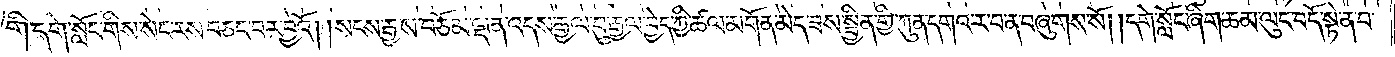གི་དགེ་སློང་གིས་སེང་རས་བཅང་བར་བྱའོ། །སངས་རྒྱས་བཅོམ་ལྡན་འདས་རྒྱལ་བུ་རྒྱལ་བྱེད་ཀྱི་ཚལ་མགོན་མེད་ཟས་སྦྱིན་གྱི་ཀུན་དགའ་ར་བ་ན་བཞུགས་སོ། །དགེ་སློང་ཞིག་ཆམ་ལུང་བདོ་སྟེ་ན་བ་
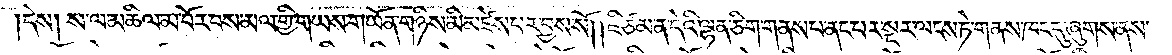དེས། ས་ལ་མཆིལ་མ་བོར་བས་མལ་གྱི་གཡས་གཡོན་གཉིས་མི་མཛེས་པར་བྱས་སོ། །ཇི་ཙམ་ན་དེའི་ལྷན་ཅིག་གནས་པ་ནང་པར་སྔར་ལངས་ཏེ་གནས་ཁང་དུ་ཞུགས་ནས་
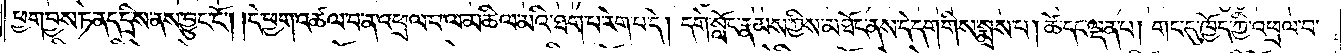ཕྱག་བྱས་ཏེ་ནད་དྲིས་ནས་བྱུང་ངོ༌། །དེ་ཕྱག་འཚལ་བ་ན་འཕྲལ་བ་ལ་མཆིལ་མའི་ཐག་པ་རེག་པ་དེ། དགེ་སློང་རྣམས་ཀྱིས་མཐོང་ནས་དེ་དག་གིས་སྨྲས་པ། ཚེ་དང་ལྡན་པ། གང་དུ་ཁྱོད་ཀྱི་འཕྲལ་བ་
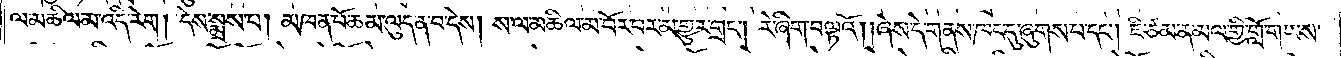ལ་མཆིལ་མ་འདི་རེག། དེས་སྨྲས་པ། མཁན་པོ་ཆམ་ལུད་ན་བ་དེས། ས་ལ་མཆིལ་མ་བོར་བར་མ་གྱུར་གྲང༌། རེ་ཞིག་བལྟའོ། །ཞེས་དེ་གནས་ཁང་དུ་ཞུགས་པ་དང༌། ཇི་ཙམ་ན་མལ་གྱི་གློ་གཡས་
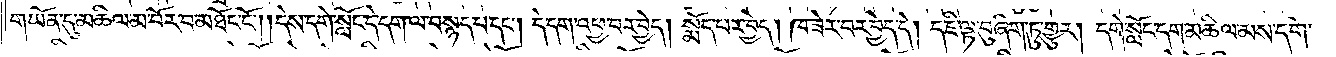གཡོན་དུ་མཆིལ་མ་བོར་བ་མཐོང་ངོ༌། །དེས་དགེ་སློང་དེ་དག་ལ་བསྙད་པ་དང༌། དེ་དག་འཕྱ་བར་བྱེད། སྨོད་པར་བྱེད། ཁ་ཟེར་བར་བྱེད་དེ། ད་ཇི་ལྟ་བུ་ཞིག་ཏུ་གྱུར། དགེ་སློང་དག་མཆིལ་མས་དགེ་
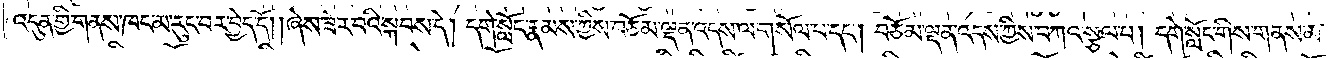འདུན་གྱི་གནས་ཁང་མ་རུང་བར་བྱེད་དོ། །ཞེས་ཟེར་བའི་སྐབས་དེ། དགེ་སློང་རྣམས་ཀྱིས་བཅོམ་ལྡན་འདས་ལ་གསོལ་པ་དང༌། བཅོམ་ལྡན་འདས་ཀྱིས་བཀའ་སྩལ་པ། དགེ་སློང་གིས་གནས་མ་
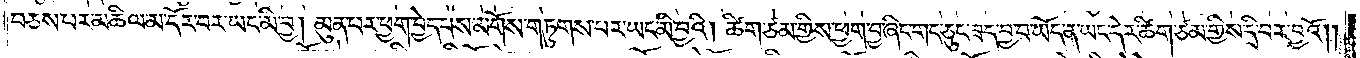བཅས་པར་མཆིལ་མ་དོར་བར་ཡང་མི་བྱ། མུན་པར་ཕྱག་བྱེད་པས་མགོས་གཏུགས་པར་ཡང་མི་བྱའི། ཚིག་ཙམ་གྱིས་ཕྱག་བྱ་ཞིང་གང་ཅུང་ཟད་བྱ་བ་ཡོད་ན་ཡང་དེར་ཚིག་ཙམ་གྱིས་དྲི་བར་བྱའོ། །
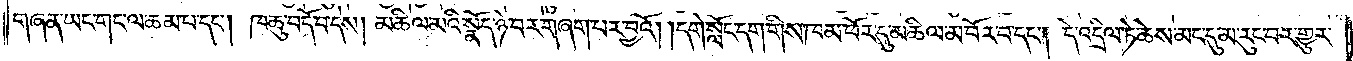གཞན་ཡང་གང་ལ་ཆམ་པ་དང༌། ཁ་ཆུ་བ་དོ་བ་དེས། མཆིལ་མའི་སྣོད་ཉེ་བར་གཞག་པར་བྱའོ། །དགེ་སློང་དག་གིས་ཁམ་ཕོར་དུ་མཆིལ་མ་བོར་བ་དང༌། དེ་འདྲིལ་ཏེ་ཆེས་མང་དུ་མ་རུང་བར་གྱུར་
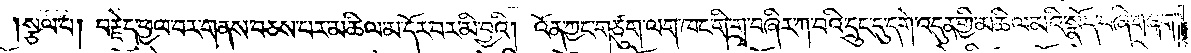སྩལ་པ། བརྗེད་ཕྱལ་བར་གནས་བཅས་པར་མཆིལ་མ་དོར་བར་མི་བྱའི། འོན་ཀྱང་གཙུག་ལག་ཁང་གི་གྲྭ་བཞིར་ཀ་བའི་དྲུང་དུ་དགེ་འདུན་གྱི་མཆིལ་མའི་སྣོད་བཞི་གཞག་
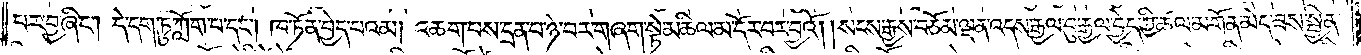པར་བྱ་ཞིང༌། དེ་དག་ཏུ་ཀློག་པ་དང༌། ཁ་ཏོན་བྱེད་པའམ། འཆག་པས་དྲན་པ་ཉེ་བར་གཞག་སྟེ་མཆིལ་མ་དོར་བར་བྱའོ། །སངས་རྒྱས་བཅོམ་ལྡན་འདས་རྒྱལ་བུ་རྒྱལ་བྱེད་ཀྱི་ཚལ་མགོན་མེད་ཟས་སྦྱིན་
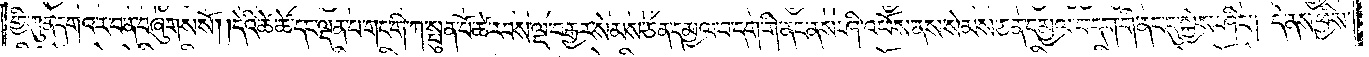གྱི་ཀུན་དགའ་ར་བ་ན་བཞུགས་སོ། །དེའི་ཚེ་ཚེ་དང་ལྡན་པ་གང་གི་ཀ་སྤུན་པོ་ཚེ་རབས་ལྔ་བརྒྱར་སེམས་ཅན་དམྱལ་བ་དག་གི་ནང་ནས་ཤི་འཕོས་ནས་སེམས་ཅན་དམྱལ་བ་དག་གི་ནང་དུ་སྐྱེས་ཤིང༌། དེ་ནས་ཕྱིས་
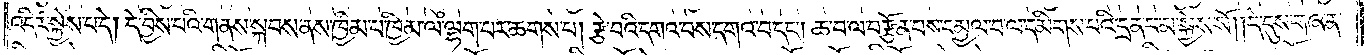འདིར་སྐྱེས་པ་དེ། དེ་བྱིས་པའི་གནས་སྐབས་ནས་ཁྱིམ་པ་ཁྱིམ་ལ་ལྷག་པར་ཆགས་པ། རྩེ་བའི་དགའ་བས་དགའ་བ་དང༌། ཆ་བ་ལ་བརྩོན་པས་དམྱལ་བ་ལ་དམིགས་པའི་དྲན་པ་མ་སྐྱེས་སོ། །དེ་དུས་གཞན་
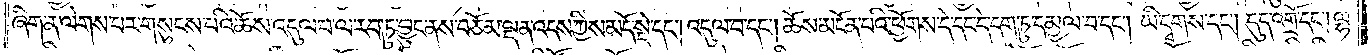ཞིག་ན་ལེགས་པར་གསུངས་པའི་ཆོས་འདུལ་བ་ལ་རབ་ཏུ་བྱུང་ནས་བཅོམ་ལྡན་འདས་ཀྱིས་མདོ་སྡེ་དང༌། འདུལ་བ་དང༌། ཆོས་མངོན་པའི་ཕྱོགས་དེ་དང་དེ་དག་ཏུ་དམྱལ་བ་དང༌། ཡི་དྭགས་དང༌། དུད་འགྲོ་དང༌། ལྷ་
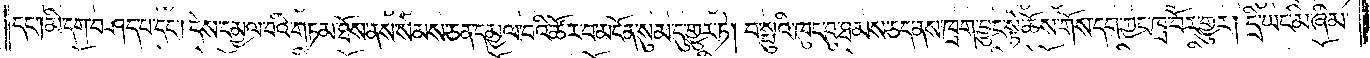དང༌། མི་དག་བཤད་པ་དང༌། དེས་དམྱལ་བའི་གཏམ་ཐོས་ནས་སེམས་ཅན་དམྱལ་བའི་ཚོར་བ་མངོན་སུམ་དུ་གྱུར་ཏེ། བ་སྤུའི་ཁུང་བ་ཐམས་ཅད་ནས་ཁྲག་བྱུང་སྟེ་ཆོས་གོས་དག་ཀྱང་ཁྲ་བོར་གྱུར། དྲི་ཡང་མི་ཞིམ་
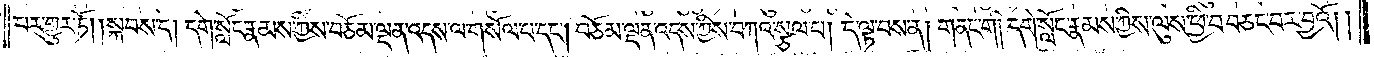པར་གྱུར་ཏོ། །སྐབས་དེ། དགེ་སློང་རྣམས་ཀྱིས་བཅོམ་ལྡན་འདས་ལ་གསོལ་པ་དང༌། བཅོམ་ལྡན་འདས་ཀྱིས་བཀའ་སྩལ་པ། དེ་ལྟ་བས་ན། གནང་གི །དགེ་སློང་རྣམས་ཀྱིས་ལུས་ཕྱི་བ་བཅང་བར་བྱའོ། །
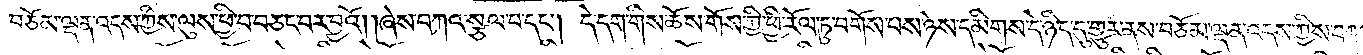བཅོམ་ལྡན་འདས་ཀྱིས་ལུས་ཕྱི་བ་བཅང་བར་བྱའོ། །ཞེས་བཀའ་སྩལ་པ་དང༌། དེ་དག་གིས་ཆོས་གོས་ཀྱི་ཕྱི་རོལ་ཏུ་བགོས་པས་ཉེས་དམིགས་དེ་ཉིད་དུ་གྱུར་ནས་བཅོམ་ལྡན་འདས་ཀྱིས་བཀ
